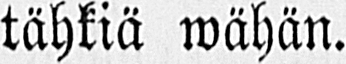tähkiä wähän.
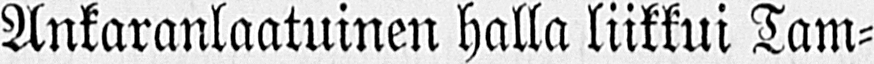Ankaranlaatuinen halla liikkui Tam-
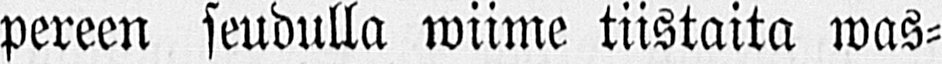pereen seudulla wiime tiistaita was-
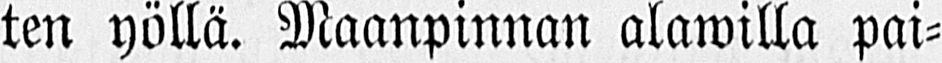ten yöllä. Maanpinnan alawilla pai-
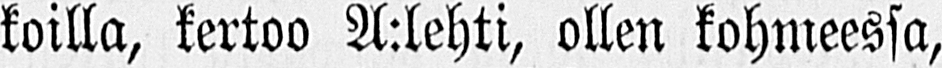koilla, kertoo A:lehti, ollen kohmeessa,
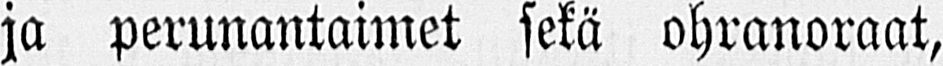ja perunantaimet sekä ohranoraat,
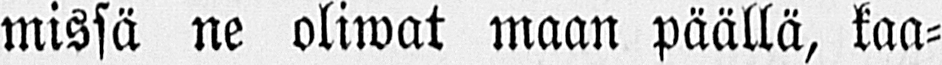missä ne oliwat maan päällä, kaa-
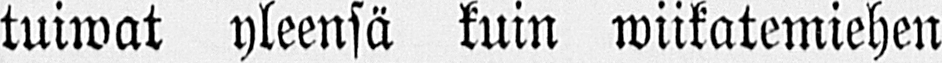tuiwat yleensä kuin wiikatemiehen
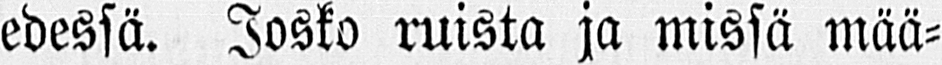edessä. Josko ruista ja missä mää-
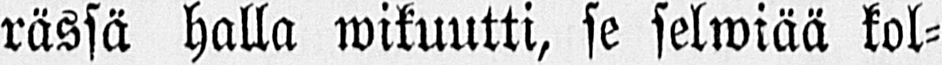rässä halla wikuutti, se selwiää kol-
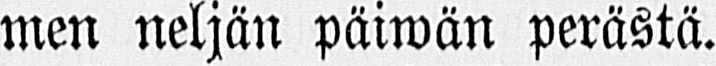men neljän päiwän perästä.
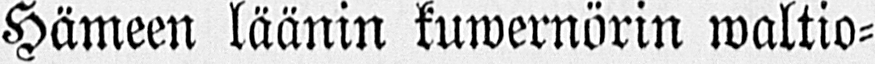Hämeen läänin kuwernörin waltio-
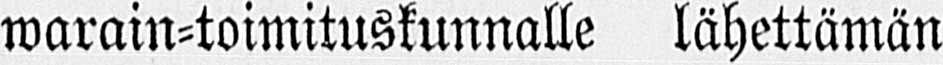warain-toimituskunnalle lähettämän
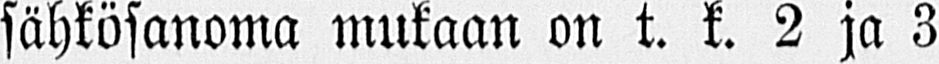sähkösanoma mukaan on t. k. 2 ja 3
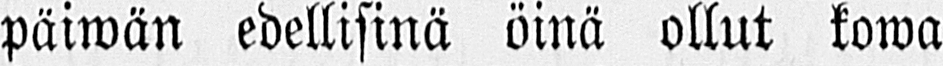päiwän edellisinä öinä ollut kowa
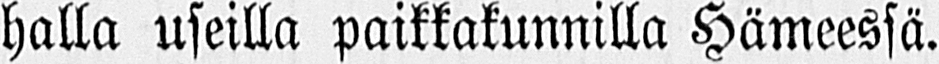halla useilla paikkakunnilla Hämeessä.
